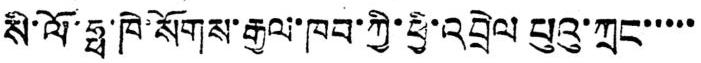སི་ལོ་ཧྥ་ཁེ་སོགས་རྒྱལ་ཁབ་ཀྱི་ཕྱི་འབྲེལ པུའུ་ཀྲང་་་་་
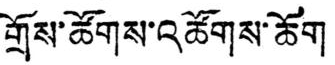གྲོས་ཚོགས་འཚོགས་ཆོག
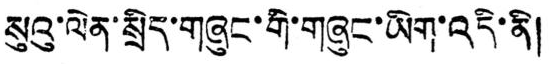སུའུ་ལེན་སྲིད་གཞུང་གི་གཞུང་ཡིག་འདི་ནི།
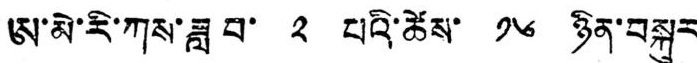ཨ་མེ་རི་ཀས་ཟླ་བ་ ༢ པའི་ཚེས་ ༡༦ ཉིན་བསྐུར
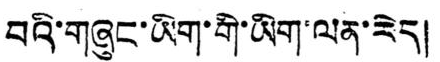བའི་གཞུང་ཡིག་གི་ཡིག་ལན་རེད།
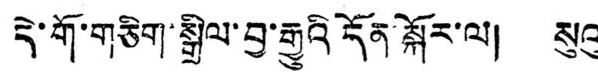དེ་གོ་གཅིག་སྒྲིལ་བྱ་རྒྱུའི དོན་སྐོར་ལ། སུའུ
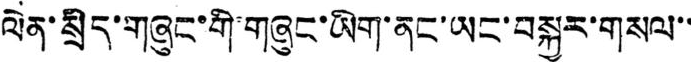ལེན་སྲིད་གཞུང་གི་གཞུང་ཡིག་ནང་ཡང་བསྐྱར་གསལ་་
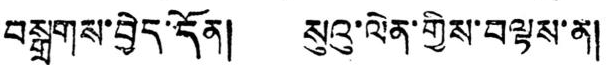བསྒྲགས་བྱེད་དོན། སུའུ་ལེན་གྱིས་བལྟས་ན།
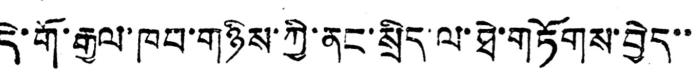དེ་གོ་རྒྱལ་ཁབ་གཉིས་ཀྱི་ནང་སྲིད་ལ་ཐེ་གཏོགས་བྱེད་་
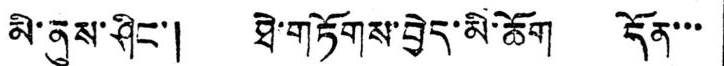མི་ནུས་ཤིང་། ཐེ་གཏོགས་བྱེད་མི་ཆོག དོན་་་
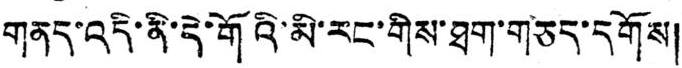གནད་འདི་ནི་དེ་གོའི་མི་རང་གིས་ཐག་གཅད་དགོས།
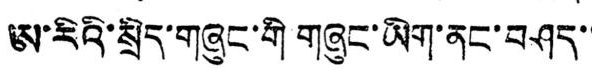ཨ་རིའི་སྲིད་གཞུང་གི གཞུང་ཡིག་ནང་བཤད་་
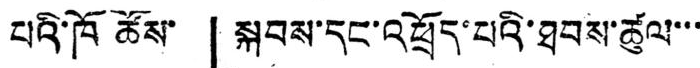པའི་ཁོ ཚོས་ 「སྐབས་དནག་འཕྲོད་པའི་ཐབས་ཚུལ་་་
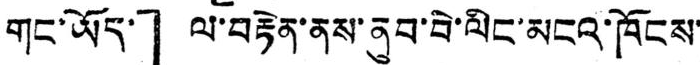གང་ཡོད་」 ལ་བརྟེན་ནས་ནུབ་བེ་ལིང་མངའ་ཁོངས་
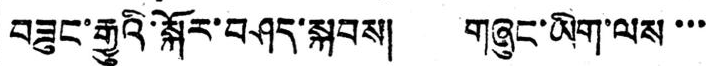བཟུང་རྒྱུའི་སྐོར་བཤད་སྐབས། གཞུང་ཡིག་ལས་་་
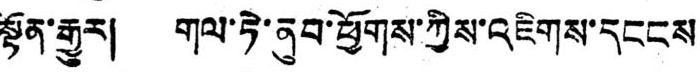སྟོན་རྒྱུར། གལ་ཏེ་ནུབ་ཕྱོགས་ཀྱིས་འཇིགས་དངངས
